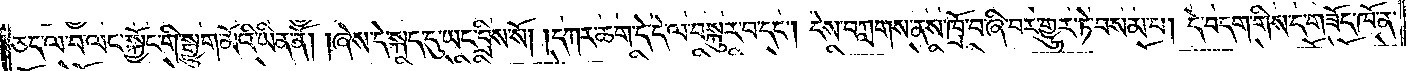ཅད་ལ་བ་ལང་སྐྱོང་གི་སྒྱུག་མོའི་ཡིན་ནོ། །ཞེས་དེ་སྐད་དུ་ཡང་བྲིས་སོ། །དཀར་ཆག་དེ་དེ་ལ་བསྐུར་བ་དང༌། དེས་བཀླགས་ནས་ཁྲོ་བ་ཞི་བར་གྱུར་ཏེ་བསམ་པ། དེ་བདག་གིས་ད་གཟོང་ཁོ་ན་
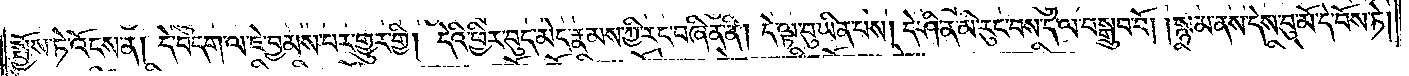སྤྱོས་ཏེ་འོངས་ན། དེ་བདག་ལ་ཇེ་བྱམས་པར་གྱུར་གྱི། དེའི་ཕྱིར་བུད་མེད་རྣམས་ཀྱི་རང་བཞིན་ནི། དེ་ལྟ་བུ་ཡིན་པས། དེ་ཤིན་མི་རུང་བས་དེ་ལ་བསྒྲུབ་བོ། །སྙམ་ནས་དེས་བུ་མོ་དེ་བོས་ཏེ།
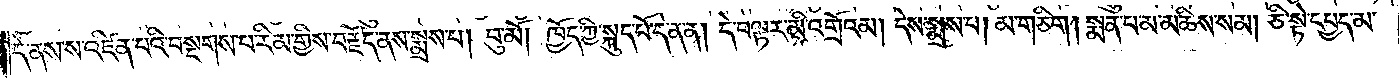དེ་ནས་ས་འཛིན་པའི་བསྔགས་པ་རིམ་གྱིས་བརྗོད་ནས་སྨྲས་པ། བུ་མོ། ཁྱོད་ཀྱི་སྐུད་པོ་དེ་ན་ན། དེ་བལྟར་མི་འགྲོའམ། དེས་སྨྲས་པ། མ་གཅིག། སྨན་པ་མ་མཆིས་སམ། ཅི་སྟེ་དཔྱད་མ་
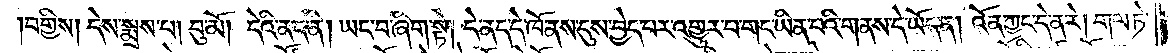བགྱིས། དེས་སྨྲས་པ། བུ་མོ། དེའི་ནད་ནི། ཡང་བ་ཞིག་སྟེ། དེ་ནད་དེ་ཁོ་ནས་དུས་བྱེད་པར་འགྱུར་བ་གང་ཡིན་པའི་གནས་དེ་ཡོད་ན། འོན་ཀྱང་དེ་ན་རེ། གལ་ཏེ་
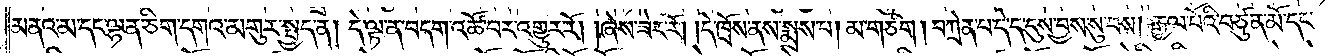མནའ་མ་དང་ལྷན་ཅིག་དགའ་མགུར་སྤྱད་ན། དེ་ལྟ་ན་བདག་འཚོ་བར་འགྱུར་རོ། །ཞེས་ཟེར་རོ། །དེ་ཁྲོས་ནས་སྨྲས་པ། མ་གཅིག །བཀྲེན་པ་དེ་ད་དུས་བྱས་སུ་བས། རྒྱལ་པོའི་བཙུན་མོ་དང་
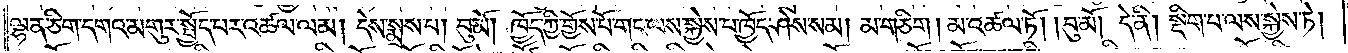ལྷན་ཅིག་དགའ་མགུར་སྤྱོད་པར་འཚལ་ལམ། དེས་སྨྲས་པ། བུ་མོ། ཁྱོད་ཀྱི་གྱོས་པོ་གང་ལས་སྐྱེས་པ་ཁྱོད་ཤེས་སམ། མ་གཅིག། མ་འཚལ་ཏོ། །བུ་མོ། དེ་ནི། སྡིག་པ་ལས་སྐྱེས་ཏེ།
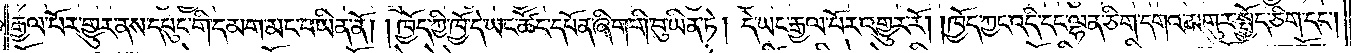རྒྱལ་པོར་གྱུར་ནས་དཔུང་གི་དམག་མང་བ་ཡིན་ནོ། །ཁྱོད་ཀྱི་ཁྱོ་དེ་ཡང་ཚོང་དཔོན་ཞིག་གི་བུ་ཡིན་ཏེ། དེ་ཡང་རྒྱལ་པོར་འགྱུར་རོ། །ཁྱོད་ཀྱང་འདི་དང་ལྷན་ཅིག་དགའ་མགུར་སྤྱོད་ཅིག་དང༌།
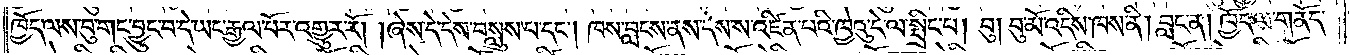ཁྱོད་ལས་བུ་གང་བྱུང་བ་དེ་ཡང་རྒྱལ་པོར་འགྱུར་རོ། །ཞེས་དེ་དེས་བསླུས་པ་དང༌། ཁས་བླངས་ནས་དེས་ས་འཛིན་པའི་ཁྱེའུ་དེ་ལ་སྤྲིང་པ། བུ། བུ་མོ་འདིས་ཁས་ནི། བླང་ན། ཁྱོད་ལ་གནོད་
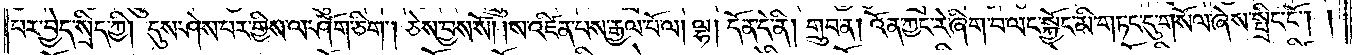པར་བྱེད་སྲིད་ཀྱི། དུས་ཤེས་པར་གྱིས་ལ་ཤོག་ཅིག །ཅེས་བྱས་སོ། །ས་འཛིན་པས་རྒྱལ་པོ་ལ། ལྷ། དོན་དེ་ནི། གྲུབ་ན། འོན་ཀྱང་རེ་ཞིག་བ་ལང་སྐྱོང་མི་གཏང་དུ་གསོལ་ཞེས་སྤྲིང་ངོ༌། །
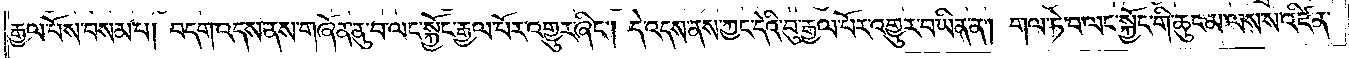རྒྱལ་པོས་བསམ་པ། བདག་འདས་ནས་གཞོན་ནུ་བ་ལང་སྐྱོང་རྒྱལ་པོར་འགྱུར་ཞིང༌། དེ་འདས་ནས་ཀྱང་དེའི་བུ་རྒྱལ་པོར་འགྱུར་བ་ཡིན་ན། གལ་ཏེ་བ་ལང་སྐྱོང་གི་ཆུང་མ་ལས་ས་འཛིན་
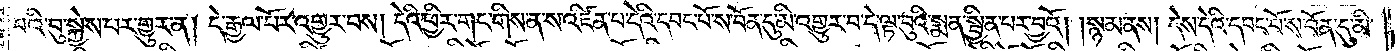པའི་བུ་སྐྱེས་པར་གྱུར་ན། དེ་རྒྱལ་པོར་འགྱུར་བས། དེའི་ཕྱིར་གང་གིས་ན་ས་འཛིན་པ་དེའི་དབང་པོ་ས་བོན་དུ་མི་འགྱུར་བ་དེ་ལྟ་བུའི་སྨན་སྦྱིན་པར་བྱའོ། །སྙམ་ནས། དེས་དེའི་དབང་པོ་ས་བོན་དུ་མི་
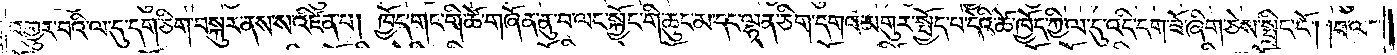འགྱུར་བའི་ལ་དུ་དག་ཅིག་བསྐུར་ནས་ས་འཛིན་པ། ཁྱོད་གང་གི་ཚེ་གཞོན་ནུ་བ་ལང་སྐྱོང་གི་ཆུང་མ་དང་ལྷན་ཅིག་དགའ་མགུར་སྤྱོད་པ་དེའི་ཆོ་ཁྱོད་ཀྱི་ལ་དུ་འདི་དག་ཟོ་ཞིག་ཅེས་སྤྲིང་ངོ༌། །བ་ལང་
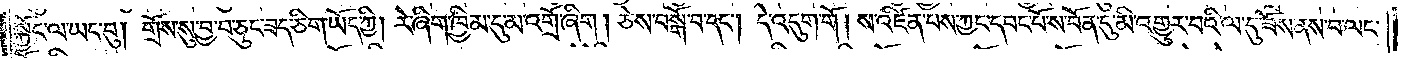སྐྱོང་ལ་ཡང་བུ། གྲོས་སུ་བྱ་བ་ཅུང་ཟད་ཅིག་ཡོད་ཀྱི། རེ་ཞིག་ཁྱིམ་དུ་མ་འགྲོ་ཞིག །ཅེས་བསྒོ་བ་དང༌། དེ་འདུག་གོ །ས་འཛིན་པས་ཀྱང་དབང་པོ་ས་བོན་དུ་མི་འགྱུར་བའི་ལ་དུ་ཟོས་ནས་བ་ལང་
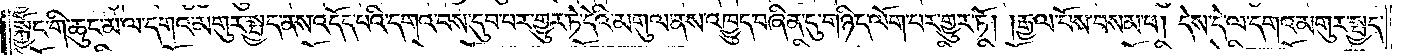སྐྱོང་གི་ཆུང་མ་ལ་དགའ་མགུར་སྤྱད་ནས་འདོད་པའི་དགའ་བས་དུབ་པར་གྱུར་ཏེ་དེའི་མགུལ་ནས་འཁྱུད་བཞིན་དུ་གཉིད་ལོག་པར་གྱུར་ཏོ། །རྒྱལ་པོས་བསམ་པ། དེས་དེ་ལ་དགའ་མགུར་སྤྱད་
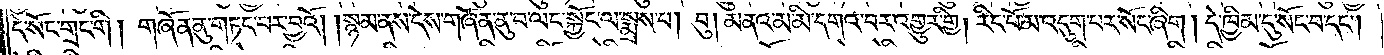དེ་སོང་གྲང་གི། གཞོན་ནུ་གཏང་བར་བྱའོ། །སྙམ་ནས་དེས་གཞོན་ནུ་བ་ལང་སྐྱོང་ལ་སྨྲས་པ། བུ། མནའ་མ་མི་དགའ་བར་འགྱུར་གྱི། རིང་པོ་མ་འདུག་པར་སོང་ཞིག །དེ་ཁྱིམ་དུ་སོང་བ་དང༌།
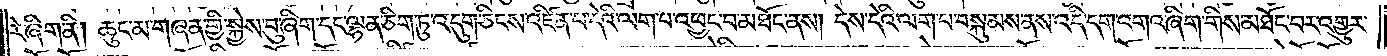རེ་ཞིག་ནི། ཆུང་མ་གཞན་གྱི་སྐྱེས་བུ་ཞིག་དང་ལྷན་ཅིག་ཏུ་འདུག་ཅིང་ས་འཛིན་པ་དེའི་ལག་པ་འཕྱང་བ་མཐོང་ནས། དེས་དེའི་ལག་པ་བསྐུམས་ནས་འདི་དག་འགའ་ཞིག་གིས་མཐོང་བར་འགྱུར་
